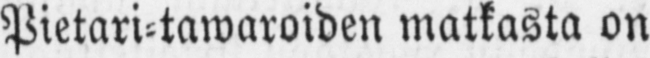Pietari-tawaroiden matkasta on
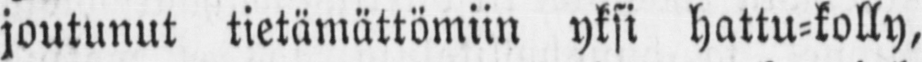joutunut tietämättömiin yksi hattu-kolly,
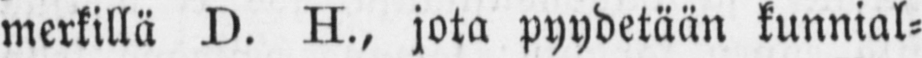merkillä D. H., jota pyydetään kunnial-
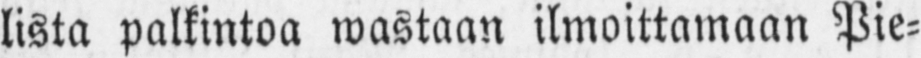lista palkintoa wastaan ilmoittamaan Pie-
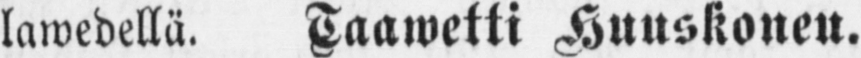lawedellä. Taawetti Huuskonen.
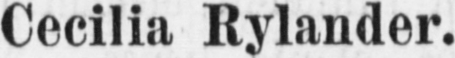Cecilia Rylander.
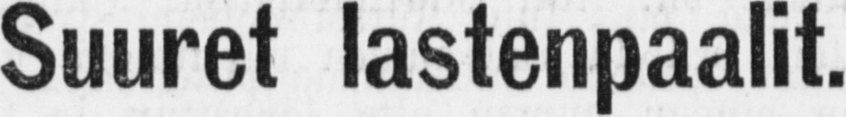Suuret lastenpaalit.
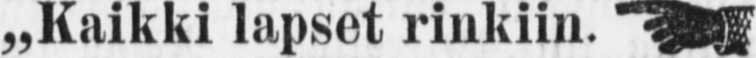„Kaikki lapset rinkiin.
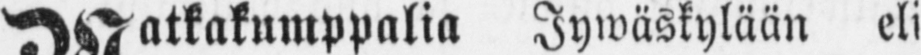Matkakumppalia Jywäskylään eli
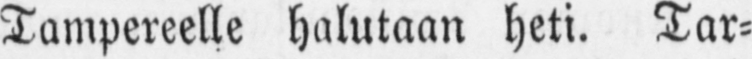Tampereelle halutaan heti. Tar-
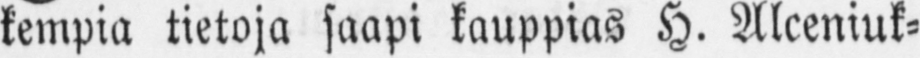kempia tietoja saapi kauppias H. Alceniuk-
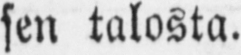sen talosta.
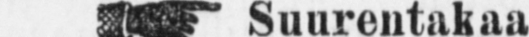Suurentakaa piiri."
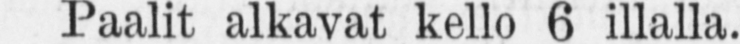Paalit alkavat kello 6 illalla.
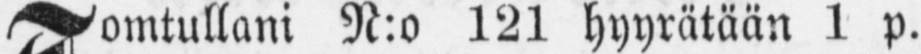Tomtullani N:o 121 hyyrätään 1 p.
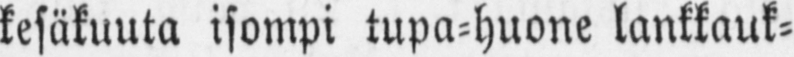kesäkuuta isompi tupa-huone lankkauk-
